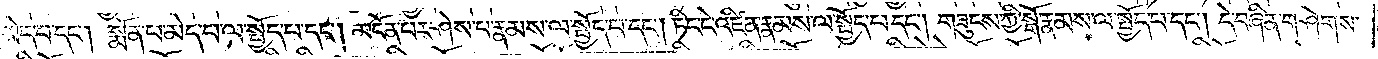མེད་པ་དང༌། སྨོན་པ་མེད་པ་ལ་སྤྱོད་པ་དང༌། མངོན་པར་ཤེས་པ་རྣམས་ལ་སྤྱོད་པ་དང༌། ཏིང་ངེ་འཛིན་རྣམས་ལ་སྤྱོད་པ་དང༌། གཟུངས་ཀྱི་སྒོ་རྣམས་ལ་སྤྱོད་པ་དང༌། དེ་བཞིན་གཤེགས་
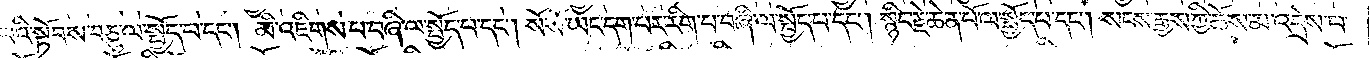པའི་སྟོབས་བཅུ་ལ་སྤྱོད་པ་དང༌། མི་འཇིགས་པ་བཞི་ལ་སྤྱོད་པ་དང༌། སོ་སོ་ཡང་དག་པར་རིག་པ་བཞི་ལ་སྤྱོད་པ་དང༌། སྙིང་རྗེ་ཆེན་པོ་ལ་སྤྱོད་པ་དང༌། སངས་རྒྱས་ཀྱི་ཆོས་མ་འདྲེས་པ་
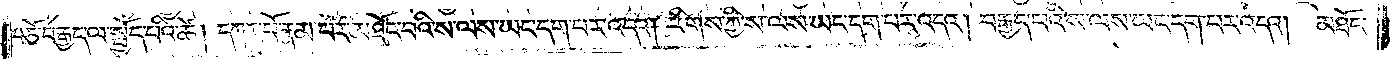བཅོ་བརྒྱད་ལ་སྤྱོད་པའི་ཚེ། དཀར་པོ་རྣམ་པར་མཐོང་བའི་ས་ལས་ཡང་དག་པར་འདའ། རིགས་ཀྱི་ས་ལས་ཡང་དག་པར་འདའ། བརྒྱད་པའི་ས་ལས་ཡང་དག་པར་འདའ། མཐོང་
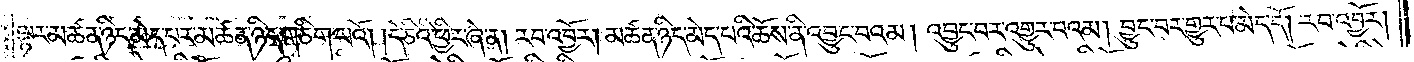ལྟར་མཚན་ཉིད་མེད་པར་མཚན་ཉིད་གཅིག་པའོ། །དེ་ཅིའི་ཕྱིར་ཞེ་ན། རབ་འབྱོར། མཚན་ཉིད་མེད་པའི་ཆོས་ནི་འབྱུང་བའམ། འབྱུང་བར་འགྱུར་བ་འམ། བྱུང་བར་གྱུར་པ་མེད་དེ། རབ་འབྱོར།
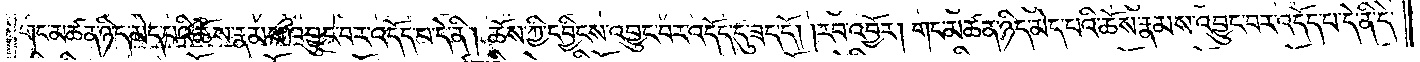གང་མཚན་ཉིད་མེད་པའི་ཆོས་རྣམས་འབྱུང་བར་འདོད་པ་དེ་ནི། ཆོས་ཀྱི་དབྱིངས་འབྱུང་བར་འདོད་དུ་ཟད་དོ། །རབ་འབྱོར། གང་མཚན་ཉིད་མེད་པའི་ཆོས་རྣམས་འབྱུང་བར་འདོད་པ་དེ་ནི་དེ་
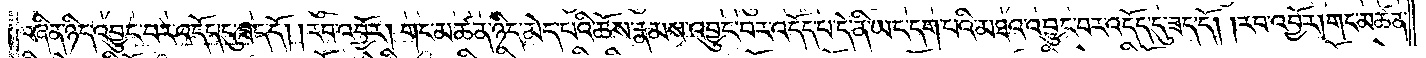བཞིན་ཉིད་འབྱུང་བར་འདོད་དུ་ཟད་དོ། །རབ་འབྱོར། གང་མཚན་ཉིད་མེད་པའི་ཆོས་རྣམས་འབྱུང་བར་འདོད་པ་དེ་ནི་ཡང་དག་པའི་མཐའ་འབྱུང་བར་འདོད་དུ་ཟད་དོ། །རབ་འབྱོར། གང་མཚན་
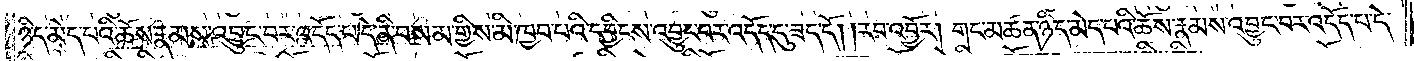ཉིད་མེད་པའི་ཆོས་རྣམས་འབྱུང་བར་འདོད་པ་དེ་ནི་བསམ་གཏན་གྱིས་མི་ཁྱབ་པའི་དབྱིངས་འབྱུང་བར་འདོད་དུ་ཟད་དོ། །རབ་འབྱོར། གང་མཚན་ཉིད་མེད་པའི་ཆོས་རྣམས་འབྱུང་བར་འདོད་པ་དེ་
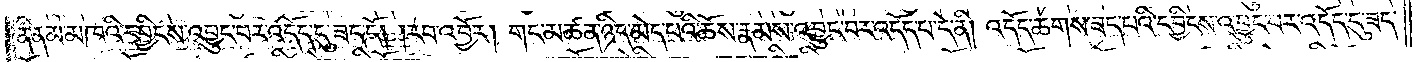ནི་ནམ་མཁའི་དབྱིངས་འབྱུང་བར་འདོད་དུ་ཟད་དོ། །རབ་འབྱོར། གང་མཚན་ཉིད་མེད་པའི་ཆོས་རྣམས་འབྱུང་བར་འདོད་པ་དེ་ནི། འདོད་ཆགས་ཟད་པའི་དབྱིངས་འབྱུང་བར་འདོད་དུ་ཟད་
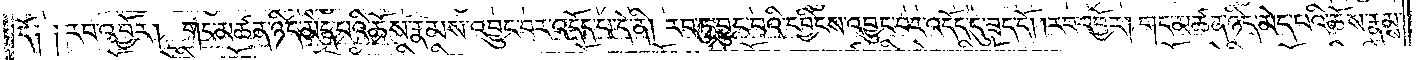དོ༑ ༑རབ་འབྱོར། གང་མཚན་ཉིད་མེད་པའི་ཆོས་རྣམས་འབྱུང་བར་འདོད་པ་དེ་ནི། རབ་ཏུ་བྱུང་བའི་དབྱིངས་འབྱུང་བར་འདོད་དུ་ཟད་དོ། །རབ་འབྱོར། གང་མཚན་ཉིད་མེད་པའི་ཆོས་རྣམས་
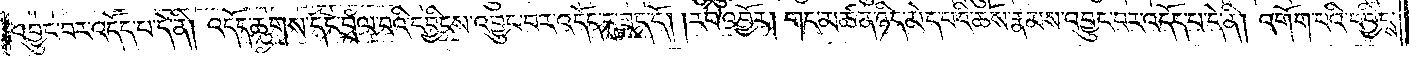འབྱུང་བར་འདོད་པ་དེ་ནི། འདོད་ཆགས་དང་བྲལ་བའི་དབྱིངས་འབྱུང་བར་འདོད་དུ་ཟད་དོ། །རབ་འབྱོར། གང་མཚན་ཉིད་མེད་པའི་ཆོས་རྣམས་འབྱུང་བར་འདོད་པ་དེ་ནི། འགོག་པའི་དབྱིངས་
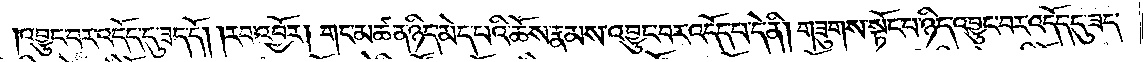འབྱུང་བར་འདོད་དུ་ཟད་དོ། །རབ་འབྱོར། གང་མཚན་ཉིད་མེད་པའི་ཆོས་རྣམས་འབྱུང་བར་འདོད་པ་དེ་ནི། གཟུགས་སྟོང་པ་ཉིད་འབྱུང་བར་འདོད་དུ་ཟད་
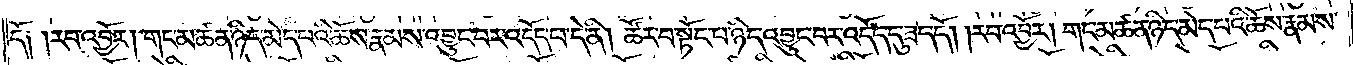དོ། །རབ་འབྱོར། གང་མཚན་ཉིད་མེད་པའི་ཆོས་རྣམས་འབྱུང་བར་འདོད་པ་དེ་ནི། ཚོར་བ་སྟོང་པ་ཉིད་འབྱུང་བར་འདོད་དུ་ཟད་དོ། །རབ་འབྱོར། གང་མཚན་ཉིད་མེད་པའི་ཆོས་རྣམས་
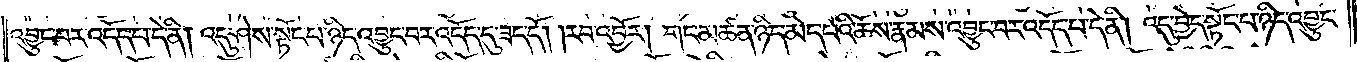འབྱུང་བར་འདོད་པ་དེ་ནི། འདུ་ཤེས་སྟོང་པ་ཉིད་འབྱུང་བར་འདོད་དུ་ཟད་དོ། །རབ་འབྱོར། གང་མཚན་ཉིད་མེད་པའི་ཆོས་རྣམས་འབྱུང་བར་འདོད་པ་དེ་ནི། འདུ་བྱེད་སྟོང་པ་ཉིད་འབྱུང་
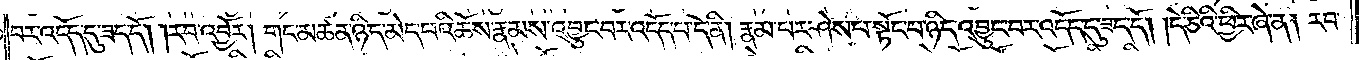བར་འདོད་དུ་ཟད་དོ། །རབ་འབྱོར། གང་མཚན་ཉིད་མེད་པའི་ཆོས་རྣམས་འབྱུང་བར་འདོད་པ་དེ་ནི། རྣམ་པར་ཤེས་པ་སྟོང་པ་ཉིད་འབྱུང་བར་འདོད་དུ་ཟད་དོ། །དེ་ཅིའི་ཕྱིར་ཞེ་ན། རབ་
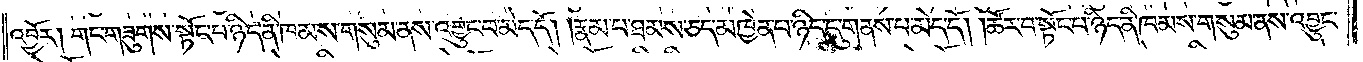འབྱོར། གང་གཟུགས་སྟོང་པ་ཉིད་ནི་ཁམས་གསུམ་ནས་འབྱུང་བ་མེད་དོ། །རྣམ་པ་ཐམས་ཅད་མཁྱེན་པ་ཉིད་དུ་གནས་པ་མེད་དོ། །ཚོར་བ་སྟོང་པ་ཉིད་ནི་ཁམས་གསུམ་ནས་འབྱུང་
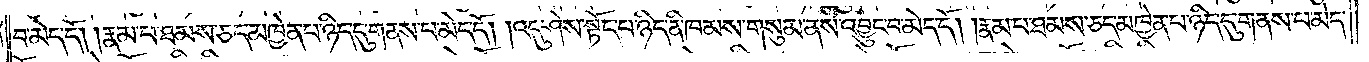བ་མེད་དོ། །རྣམ་པ་ཐམས་ཅད་མཁྱེན་པ་ཉིད་དུ་གནས་པ་མེད་དོ། །འདུ་ཤེས་སྟོང་པ་ཉིད་ནི་ཁམས་གསུམ་ནས་འབྱུང་བ་མེད་དོ། །རྣམ་པ་ཐམས་ཅད་མཁྱེན་པ་ཉིད་དུ་གནས་པ་མེད་
